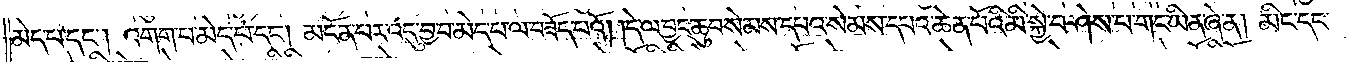མེད་པ་དང༌། འགག་པ་མེད་པ་དང༌། མངོན་པར་འདུ་བྱ་བ་མེད་པ་ལ་བཟོད་པའོ། །དེ་ལ་བྱང་ཆུབ་སེམས་དཔའ་སེམས་དཔའ་ཆེན་པོའི་མི་སྐྱེ་བ་ཤེས་པ་གང་ཡིན་ཞེ་ན། མིང་དང་
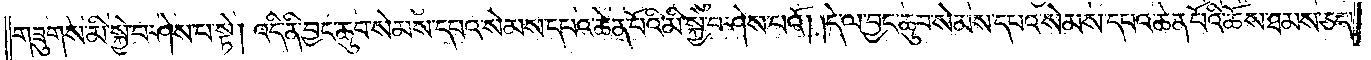གཟུགས་མི་སྐྱེ་བ་ཤེས་པ་སྟེ། འདི་ནི་བྱང་ཆུབ་སེམས་དཔའ་སེམས་དཔའ་ཆེན་པོའི་མི་སྐྱེ་བ་ཤེས་པའོ། །དེ་ལ་བྱང་ཆུབ་སེམས་དཔའ་སེམས་དཔའ་ཆེན་པོའི་ཆོས་ཐམས་ཅད་
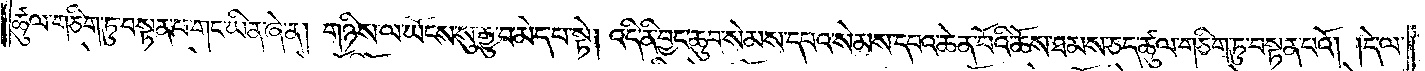ཚུལ་གཅིག་ཏུ་བསྟན་པ་གང་ཡིན་ཞེ་ན། གཉིས་ལ་ཡོངས་སུ་རྒྱུ་བ་མེད་པ་སྟེ། འདི་ནི་བྱང་ཆུབ་སེམས་དཔའ་སེམས་དཔའ་ཆེན་པོའི་ཆོས་ཐམས་ཅད་ཚུལ་གཅིག་ཏུ་བསྟན་པའོ། །དེ་ལ་
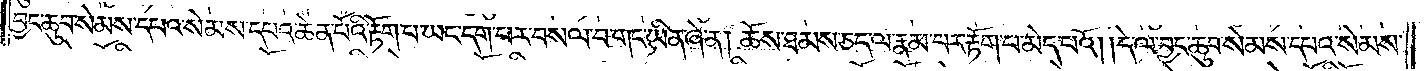བྱང་ཆུབ་སེམས་དཔའ་སེམས་དཔའ་ཆེན་པོའི་རྟོག་པ་ཡང་དག་པར་བསལ་བ་གང་ཡིན་ཞེ་ན། ཆོས་ཐམས་ཅད་ལ་རྣམ་པར་རྟོག་པ་མེད་པའོ། །དེ་ལ་བྱང་ཆུབ་སེམས་དཔའ་སེམས་
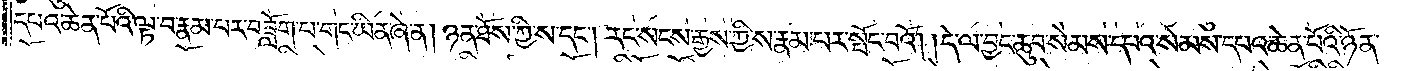དཔའ་ཆེན་པོའི་ལྟ་བ་རྣམ་པར་བཟློག་པ་གང་ཡིན་ཞེ་ན། ཉན་ཐོས་ཀྱི་ས་དང༌། རང་སངས་རྒྱས་ཀྱི་ས་རྣམ་པར་སྤོང་བའོ། །དེ་ལ་བྱང་ཆུབ་སེམས་དཔའ་སེམས་དཔའ་ཆེན་པོའི་ཉོན་
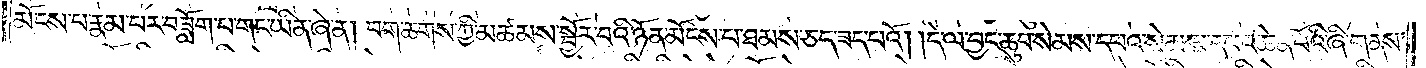མོངས་པ་རྣམ་པར་བཟློག་པ་གང་ཡིན་ཞེ་ན། བག་ཆགས་ཀྱི་མཚམས་སྦྱོར་བའི་ཉོན་མོངས་པ་ཐམས་ཅད་ཟད་པའོ། །དེ་ལ་བྱང་ཆུབ་སེམས་དཔའ་སེམས་དཔའ་ཆེན་པོའི་ཞི་གནས་
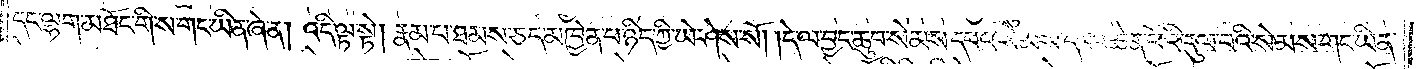དང་ལྷག་མཐོང་གི་ས་གང་ཡིན་ཞེ་ན། འདི་ལྟ་སྟེ། རྣམ་པ་ཐམས་ཅད་མཁྱེན་པ་ཉིད་ཀྱི་ཡེ་ཤེས་སོ། །དེ་ལ་བྱང་ཆུབ་སེམས་དཔའ་སེམས་དཔའ་ཆེན་པོའི་དུལ་བའི་སེམས་གང་ཡིན་
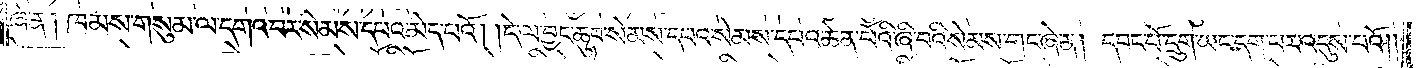ཞེ་ན། ཁམས་གསུམ་ལ་དགའ་བར་སེམས་པ་མེད་པའོ། །དེ་ལ་བྱང་ཆུབ་སེམས་དཔའ་སེམས་དཔའ་ཆེན་པོའི་ཞི་བའི་སེམས་གང་ཞེ་ན། དབང་པོ་དྲུག་ཡང་དག་པར་འདུས་པའོ། །
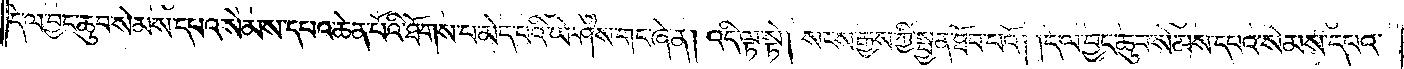དེ་ལ་བྱང་ཆུབ་སེམས་དཔའ་སེམས་དཔའ་ཆེན་པོའི་ཐོགས་པ་མེད་པའི་ཡེ་ཤེས་གང་ཞེ་ན། འདི་ལྟ་སྟེ། སངས་རྒྱས་ཀྱི་སྤྱན་ཐོབ་པའོ། །དེ་ལ་བྱང་ཆུབ་སེམས་དཔའ་སེམས་དཔའ་
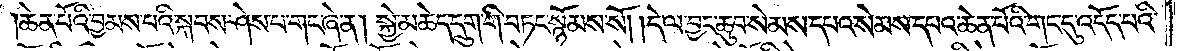ཆེན་པོའི་བྱམས་པའི་སྐབས་ཤེས་པ་གང་ཞེ་ན། སྐྱེ་མཆེད་དྲུག་གི་བཏང་སྙོམས་སོ། །དེ་ལ་བྱང་ཆུབ་སེམས་དཔའ་སེམས་དཔའ་ཆེན་པོའི་གང་དུ་འདོད་པའི་
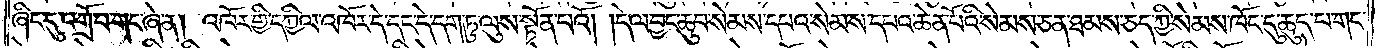ཞིང་དུ་འགྲོ་བ་གང་ཞེ་ན། འཁོར་གྱི་དཀྱིལ་འཁོར་དེ་དང་དེ་དག་ཏུ་ལུས་སྟོན་པའོ། །དེ་ལ་བྱང་ཆུབ་སེམས་དཔའ་སེམས་དཔའ་ཆེན་པོའི་སེམས་ཅན་ཐམས་ཅད་ཀྱི་སེམས་ཁོང་དུ་ཆུད་པ་གང་
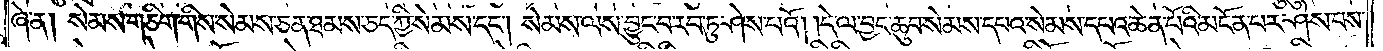ཞེ་ན། སེམས་གཅིག་གིས་སེམས་ཅན་ཐམས་ཅད་ཀྱི་སེམས་དང༌། སེམས་ལས་བྱུང་བ་རབ་ཏུ་ཤེས་པའོ། །དེ་ལ་བྱང་ཆུབ་སེམས་དཔའ་སེམས་དཔའ་ཆེན་པོའི་མངོན་པར་ཤེས་པས་
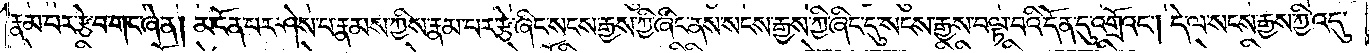རྣམ་པར་རྩེ་བ་གང་ཞེ་ན། མངོན་པར་ཤེས་པ་རྣམས་ཀྱིས་རྣམ་པར་བརྩེ་ཞིང་སངས་རྒྱས་ཀྱི་ཞིང་ནས་སངས་རྒྱས་ཀྱི་ཞིང་དུ་སངས་རྒྱས་བལྟ་བའི་དོན་དུ་འགྲོ་འང༌། དེ་ལ་སངས་རྒྱས་ཀྱི་འདུ་
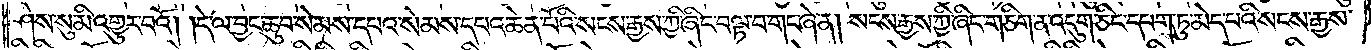ཤེས་སུ་མི་འགྱུར་བའོ། །དེ་ལ་བྱང་ཆུབ་སེམས་དཔའ་སེམས་དཔའ་ཆེན་པོའི་སངས་རྒྱས་ཀྱི་ཞིང་བལྟ་བ་གང་ཞེ་ན། སངས་རྒྱས་ཀྱི་ཞིང་གཅིག་ན་འདུག་ཅིང་དཔག་ཏུ་མེད་པའི་སངས་རྒྱས་
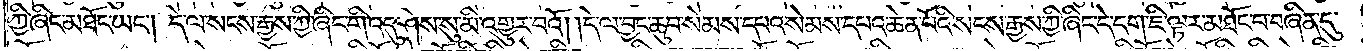ཀྱི་ཞིང་མཐོང་ཡང༌། དེ་ལ་སངས་རྒྱས་ཀྱི་ཞིང་གི་འདུ་ཤེས་སུ་མི་འགྱུར་བའོ། །དེ་ལ་བྱང་ཆུབ་སེམས་དཔའ་སེམས་དཔའ་ཆེན་པོའི་སངས་རྒྱས་ཀྱི་ཞིང་དེ་དག་ཇི་ལྟར་མཐོང་བ་བཞིན་དུ་
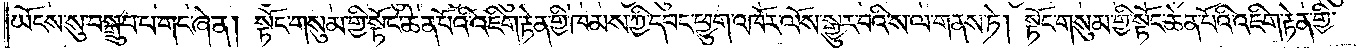ཡོངས་སུ་བསྒྲུབ་པ་གང་ཞེ་ན། སྟོང་གསུམ་གྱི་སྟོང་ཆེན་པོའི་འཇིག་རྟེན་གྱི་ཁམས་ཀྱི་དབང་ཕྱུག་འཁོར་ལོས་སྒྱུར་བའི་ས་ལ་གནས་ཏེ། སྟོང་གསུམ་གྱི་སྟོང་ཆེན་པོའི་འཇིག་རྟེན་གྱི་
